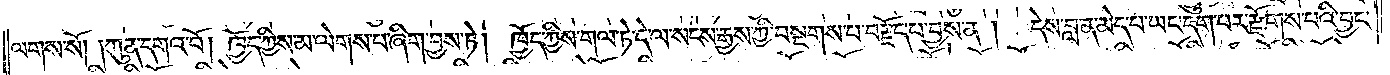ལགས་སོ། །ཀུན་དགའ་བོ། ཁྱོད་ཀྱིས་མ་ལེགས་པ་ཞིག་བྱས་ཏེ། ཁྱོད་ཀྱིས་གལ་ཏེ་དེ་ལ་སངས་རྒྱས་ཀྱི་བསྔགས་པ་བརྗོད་པ་བྱས་ན། དེས་བླ་ན་མེད་པ་ཡང་དག་པར་རྫོགས་པའི་བྱང་
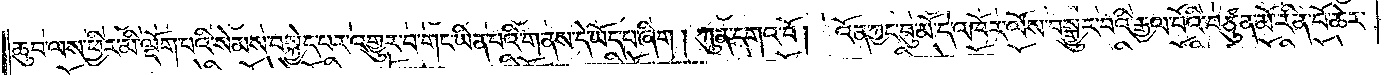ཆུབ་ལས་ཕྱིར་མི་ལྡོག་པའི་སེམས་བསྐྱེད་པར་འགྱུར་བ་གང་ཡིན་པའི་གནས་དེ་ཡོད་པ་ཞིག། ཀུན་དགའ་བོ། འོན་ཀྱང་བུ་མོ་དེ་འཁོར་ལོས་བསྒྱུར་བའི་རྒྱལ་པོའི་བཙུན་མོ་རིན་པོ་ཆེར་
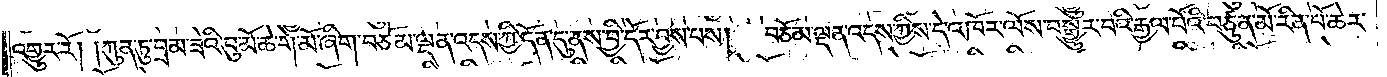འགྱུར་རོ། །ཀུན་ཏུ་བྲམ་ཟེའི་བུ་མོ་ཆེ་གེ་མོ་ཞིག་བཅོམ་ལྡན་འདས་ཀྱི་དོན་དུ་ནས་བྱི་དོར་བྱས་པས།<gap>བཅོམ་ལྡན་འདས་ཀྱིས་དེ་འཁོར་ལོས་བསྒྱུར་བའི་རྒྱལ་པོའི་བཙུན་མོ་རིན་པོ་ཆེར་
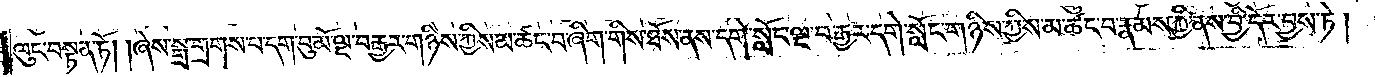ལུང་བསྟན་ཏོ། །ཞེས་སྒྲ་གྲགས་པ་དག་བུ་མོ་ལྔ་བརྒྱར་གཉིས་ཀྱིས་མ་ཚང་བ་ཞིག་གིས་ཐོས་ནས་དགེ་སློང་ལྔ་བརྒྱར་དགེ་སློང་གཉིས་ཀྱིས་མ་ཚང་བ་རྣམས་ཀྱི་ནས་བྱི་དོར་བྱས་ཏེ།
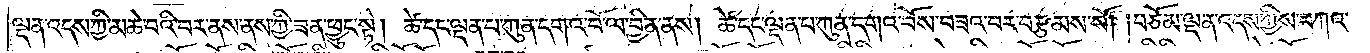ལྡན་འདས་ཀྱི་མཆེ་བའི་བར་ནས་ནས་ཀྱི་ཟན་ཕྱུང་སྟེ། ཚེ་དང་ལྡན་པ་ཀུན་དགའ་བོ་ལ་བྱིན་ནས། ཚེ་དང་ལྡན་པ་ཀུན་དགའ་བོས་བཟའ་བར་བརྩམས་སོ། །བཅོམ་ལྡན་འདས་ཀྱིས་བཀའ་
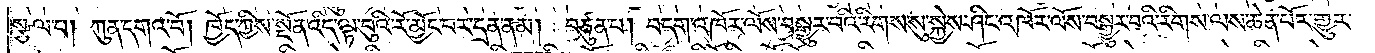སྩལ་པ། ཀུན་དགའ་བོ། ཁྱོད་ཀྱིས་སྔོན་འདི་ལྟ་བུའི་རོ་མྱོང་བར་དྲན་ནམ། བཙུན་པ། བདག་འཁོར་ལོས་བསྒྱུར་བའི་རིགས་སུ་སྐྱེས་ཤིང་འཁོར་ལོས་བསྒྱུར་བའི་རིགས་ལས་ཆེན་པོར་གྱུར་
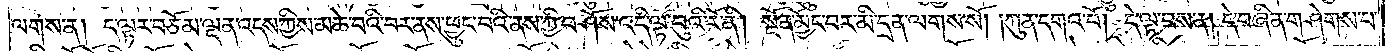ལགས་ན། ད་ལྟར་བཅོམ་ལྡན་འདས་ཀྱིས་མཆེ་བའི་བར་ནས་ཕྱུང་བའི་ནས་ཀྱི་བཤོས་འདི་ལྟ་བུའི་རོ་ནི། སྔོན་མྱོང་བར་མི་དྲན་ལགས་སོ། །ཀུན་དགའ་བོ། དེ་ལྟ་བས་ན། དེ་བཞིན་གཤེགས་པ་
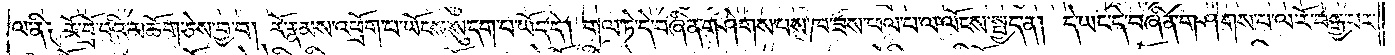ལ་ནི། རོ་བྲོ་བའི་མཆོག་ཅེས་བྱ་བ། རོ་རྣམས་འཕྲོག་པ་ཡོངས་སུ་དག་པ་ཡོད་དེ། གལ་ཏེ་དེ་བཞིན་གཤེགས་པས་ཁ་ཟས་ཕལ་པ་ལ་ལོངས་སྤྱད་ན། དེ་ཡང་དེ་བཞིན་གཤེགས་པ་ལ་རོ་བརྒྱ་པར་
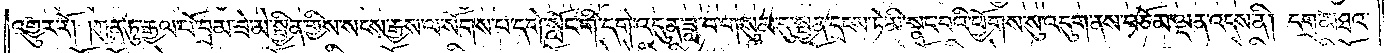འགྱུར་རོ། །ཀུན་ཏུ་རྒྱལ་པོ་བྲམ་ཟེ་མེ་སྦྱིན་གྱིས་སངས་རྒྱས་ལ་སོགས་པ་དགེ་སློང་གི་དགེ་འདུན་ཟླ་བ་གསུམ་དུ་སྤྱན་དྲངས་ཏེ་མི་སྣང་བའི་ཕྱོགས་སུ་འདུག་ནས་བཅོམ་ལྡན་འདས་ནི། དགྲ་མཐའ་
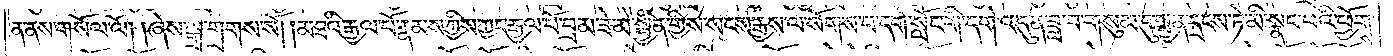ན་ནས་གསོལ་ལོ། །ཞེས་སྒྲ་གྲགས་སོ། །མཐའི་རྒྱལ་པོ་རྣམས་ཀྱིས་ཀྱང་རྒྱལ་པོ་བྲམ་ཟེ་མེ་སྦྱིན་གྱིས་སངས་རྒྱས་ལ་སོགས་པ་དགེ་སློང་གི་དགེ་འདུན་ཟླ་བ་གསུམ་དུ་སྤྱན་དྲངས་ཏེ་མི་སྣང་བའི་ཕྱོགས་
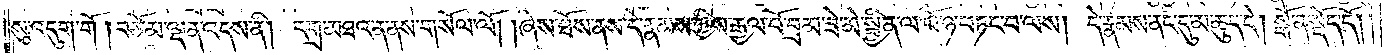སུ་འདུག་གོ །བཅོམ་ལྡན་འདས་ནི། དགྲ་མཐའ་ན་ནས་གསོལ་ལོ། །ཞེས་ཐོས་ནས་དེ་རྣམས་ཀྱིས་རྒྱལ་པོ་བྲམ་ཟེ་མེ་སྦྱིན་ལ་ཕོ་ཉ་བཏང་བ་ལས། དེ་རྣམས་ནང་དུ་མ་ཆུད་དེ། སྒོ་ན་སྡོད་དོ། །
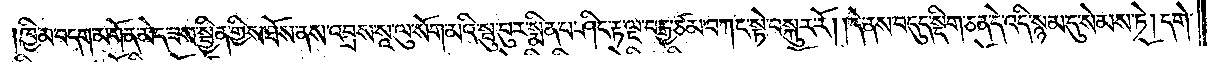ཁྱིམ་བདག་མགོན་མེད་ཟས་སྦྱིན་གྱིས་ཐོས་ནས་འབྲས་སཱ་ལུ་སོག་མའི་སྦུ་བུར་སྨིན་པ་ཤིང་རྟ་ལྔ་བརྒྱ་ཙམ་བཀང་སྟེ་བསྐུར་རོ། །དེ་ནས་བདུད་སྡིག་ཅན་དེ་འདི་སྙམ་དུ་སེམས་ཏེ། དགེ་
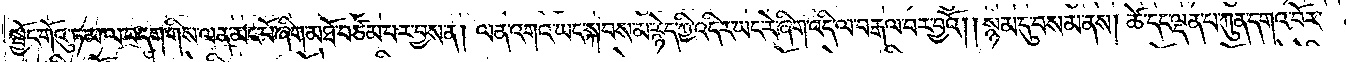སྦྱོང་གོའུ་ཏ་མ་ལ་བདག་གིས་ལན་མང་པོ་ཞིག་མཐོ་བཙམ་པར་བྱས་ན། ལན་འགའ་ཡང་སྐབས་མ་རྙེད་ཀྱི་འདིར་ཡང་རེ་ཞིག་འདི་ལ་བརྒལ་བར་བྱའོ། །སྙམ་དུ་བསམ་ནས། ཚེ་དང་ལྡན་པ་ཀུན་དགའ་བོར་
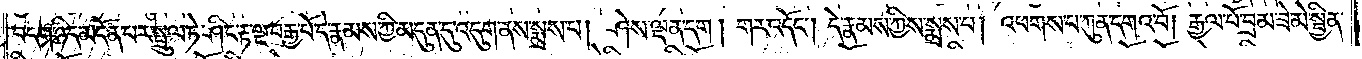བདག་ཉིད་མངོན་པར་སྤྲུལ་ཏེ་ཤིང་རྟ་ལྔ་བརྒྱ་པོ་དེ་རྣམས་ཀྱི་མདུན་དུ་འདུག་ནས་སྨྲས་པ། ཤེས་ལྡན་དག། གར་འདོང༌། དེ་རྣམས་ཀྱིས་སྨྲས་པ། འཕགས་པ་ཀུན་དགའ་བོ། རྒྱལ་པོ་བྲམ་ཟེ་མེ་སྦྱིན་
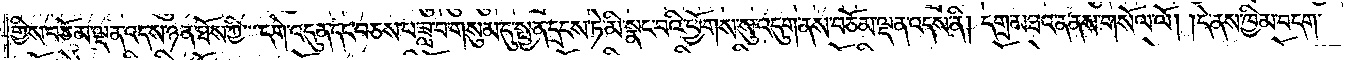གྱིས་བཅོམ་ལྡན་འདས་ཉན་ཐོས་ཀྱི་དགེ་འདུན་དང་བཅས་པ་ཟླ་བ་གསུམ་དུ་སྤྱན་དྲངས་ཏེ་མི་སྣང་བའི་ཕྱོགས་སུ་འདུག་ནས་བཅོམ་ལྡན་འདས་ནི། དགྲ་མཐའ་ན་ནས་གསོལ་ལོ། །དེ་ནས་ཁྱིམ་བདག་
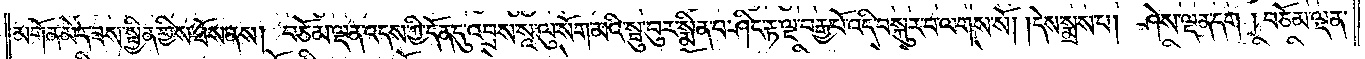མགོན་མེད་ཟས་སྦྱིན་གྱིས་ཐོས་ནས། བཅོམ་ལྡན་འདས་ཀྱི་དོན་དུ་འབྲས་སཱ་ལུ་སོག་མའི་སྦུ་བུར་སྨིན་པ་ཤིང་རྟ་ལྔ་བརྒྱ་པོ་འདི་བསྐུར་བ་ལགས་སོ། །དེས་སྨྲས་པ། ཤེས་ལྡན་དག །བཅོམ་ལྡན་
